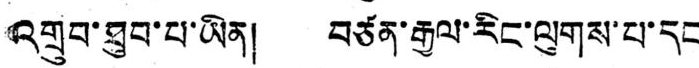འགྲུབ་ཐུབ་པ་ཡིན། བཙན་རྒྱལ་རིང་ལུགས་པ་དང
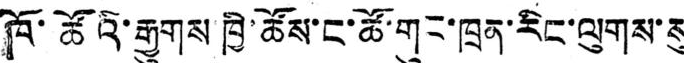ཁོ་ཚོའི་རྒྱུགས་ཁྱི་ཚོས་ང་ཚོ་གུང་ཁྲན་རིང་ལུགས་སུ
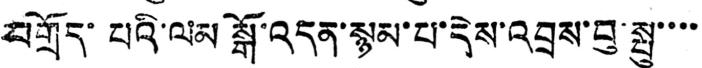བགྲོད་པའི་ལམ སྒོ་འདན་སྙམ་པ་དེས་འབྲས་བུ་སྤུ་་་་
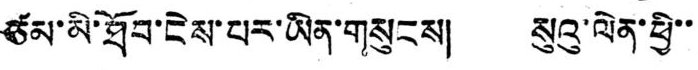ཙམ་མི་ཐོབ་ངེས་པར་ཡིན་གསུངས། སུའུ་ལེན་ཕྱི་་
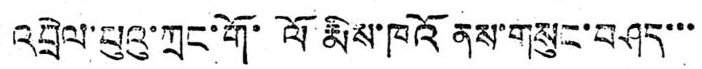འབྲེལ་པུའུ་ཀྲང་གོ་ལོ་རྨིས་ཁོའོ ནས་གསུང་བཤད་་་
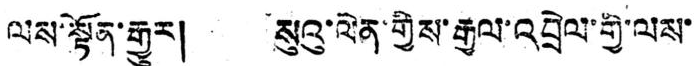ལས་སྟོན་རྒྱུར། སུའུ་ལེན་གྱིས་རྒྱལ་འབྲེལ་གྱི་ལས་
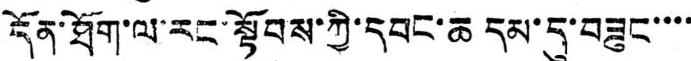དོན་ཐོག་ལ་རང་སྟོབས་ཀྱི་དབང་ཆ དམ་དུ་བཟུང་་་་
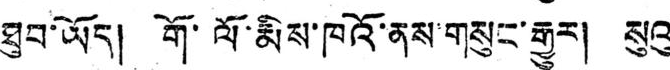ཐུབ་ཡོད། གོ་ལོ་རྨིས་ཁའོ་ནས་གསུང་རྒྱུར། སུའུ་
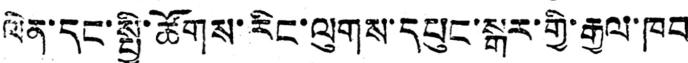ལེན་དང་སྤྱི་ཚོགས་རིང་ལུགས་དཔུང་སྒར་གྱི་རྒྱལ་ཁབ
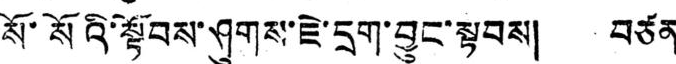སོ་སོའི་སྟོབས་ཤུགས་ཇེ་དྲག་བྱུང་སྟབས། བཙན་
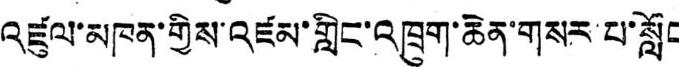འཛུལ་མཁན་གྱིས་འཛམ་གླིང་འཁྲུག་ཆེན་གསར་པ་སློང
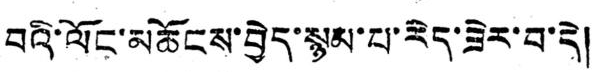པའི་ལོང་མཆོངས་བྱེད་སྙམ་པ་རེད་ཟེར་བ་དེ།
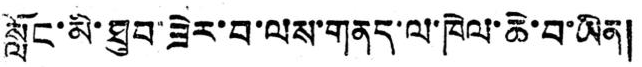སློང་མི་ཐུབ་ཟེར་བ་ལས་གནད་ལ་ཁེལ་ཆེ་བ་ཡིན།
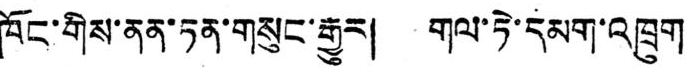ཁོང་གིས་ནན་ཏན་གསུང་རྒྱུར། གལ་ཏེ་དམག་འཁྲུག
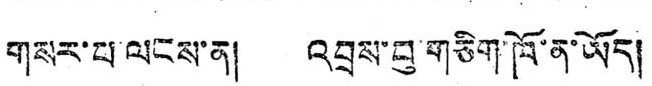གསར་པ་ལངས་ན། འབྲས་བུ་གཅིག་ཁོ་ན་ཡོད།
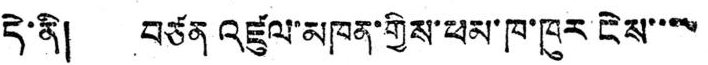དེ་ནི། བཙན འཛུལ་མཁན་གྱིས་ཕམ་ཁ་ཁུར་ངེས་་་་་
